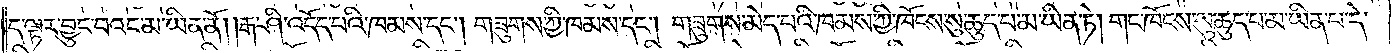ད་ལྟར་བྱུང་བའང་མ་ཡིན་ནོ། །རྒ་ཤི་འདོད་པའི་ཁམས་དང༌། གཟུགས་ཀྱི་ཁམས་དང༌། གཟུགས་མེད་པའི་ཁམས་ཀྱི་ཁོངས་སུ་ཆུད་པ་མ་ཡིན་ཏེ། གང་ཁོངས་སུ་ཆུད་པ་མ་ཡིན་པ་དེ་
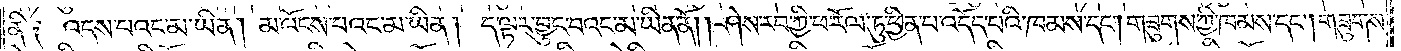ནི༑ འདས་པའང་མ་ཡིན། མ་འོངས་པའང་མ་ཡིན། ད་ལྟར་བྱུང་བའང་མ་ཡིན་ནོ། །ཤེས་རབ་ཀྱི་ཕ་རོལ་ཏུ་ཕྱིན་པ་འདོད་པའི་ཁམས་དང༌། གཟུགས་ཀྱི་ཁམས་དང༌། གཟུགས་
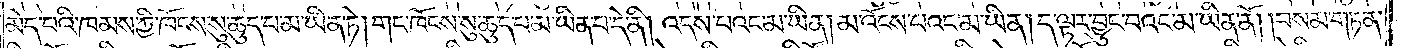མེད་པའི་ཁམས་ཀྱི་ཁོངས་སུ་ཆུད་པ་མ་ཡིན་ཏེ། གང་ཁོངས་སུ་ཆུད་པ་མ་ཡིན་པ་དེ་ནི། འདས་པའང་མ་ཡིན། མ་འོངས་པའང་མ་ཡིན། ད་ལྟར་བྱུང་བའང་མ་ཡིན་ནོ། །བསམ་གཏན་
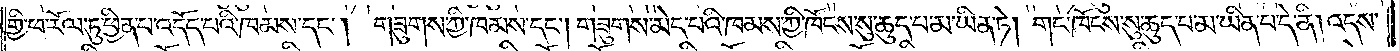གྱི་ཕ་རོལ་ཏུ་ཕྱིན་པ་འདོད་པའི་ཁམས་དང༌། གཟུགས་ཀྱི་ཁམས་དང༌། གཟུགས་མེད་པའི་ཁམས་ཀྱི་ཁོངས་སུ་ཆུད་པ་མ་ཡིན་ཏེ། གང་ཁོངས་སུ་ཆུད་པ་མ་ཡིན་པ་དེ་ནི། འདས་
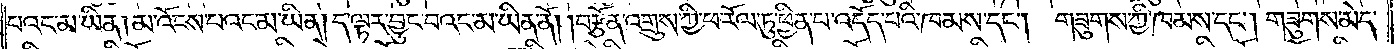པའང་མ་ཡིན། མ་འོངས་པའང་མ་ཡིན། ད་ལྟར་བྱུང་བའང་མ་ཡིན་ནོ། །བརྩོན་འགྲུས་ཀྱི་ཕ་རོལ་ཏུ་ཕྱིན་པ་འདོད་པའི་ཁམས་དང༌། གཟུགས་ཀྱི་ཁམས་དང༌། གཟུགས་མེད་
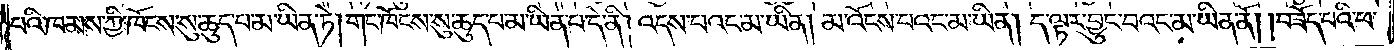པའི་ཁམས་ཀྱི་ཁོངས་སུ་ཆུད་པ་མ་ཡིན་ཏེ། གང་ཁོངས་སུ་ཆུད་པ་མ་ཡིན་པ་དེ་ནི། འདས་པའང་མ་ཡིན། མ་འོངས་པའང་མ་ཡིན། ད་ལྟར་བྱུང་བའང་མ་ཡིན་ནོ། །བཟོད་པའི་ཕ་
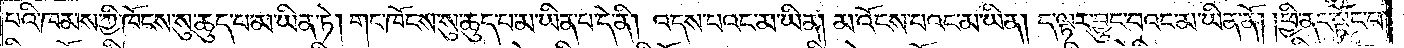པའི་ཁམས་ཀྱི་ཁོངས་སུ་ཆུད་པ་མ་ཡིན་ཏེ། གང་ཁོངས་སུ་ཆུད་པ་མ་ཡིན་པ་དེ་ནི། འདས་པའང་མ་ཡིན། མ་འོངས་པའང་མ་ཡིན། ད་ལྟར་བྱུང་བའང་མ་ཡིན་ནོ། །ཕྱི་ནང་སྟོང་པ་
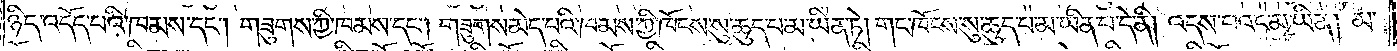ཉིད་འདོད་པའི་ཁམས་དང༌། གཟུགས་ཀྱི་ཁམས་དང༌། གཟུགས་མེད་པའི་ཁམས་ཀྱི་ཁོངས་སུ་ཆུད་པ་མ་ཡིན་ཏེ། གང་ཁོངས་སུ་ཆུད་པ་མ་ཡིན་པ་དེ་ནི། འདས་པའང་མ་ཡིན། མ་
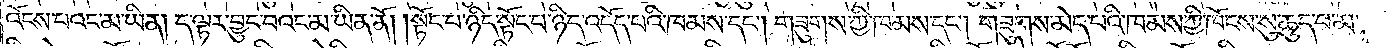འོངས་པའང་མ་ཡིན། ད་ལྟར་བྱུང་བའང་མ་ཡིན་ནོ། །སྟོང་པ་ཉིད་སྟོང་པ་ཉིད་འདོད་པའི་ཁམས་དང༌། གཟུགས་ཀྱི་ཁམས་དང༌། གཟུགས་མེད་པའི་ཁམས་ཀྱི་ཁོངས་སུ་ཆུད་པ་མ་
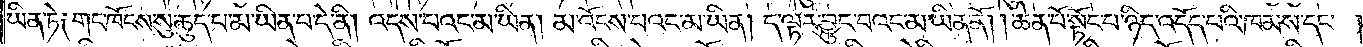ཡིན་ཏེ༑ གང་ཁོངས་སུ་ཆུད་པ་མ་ཡིན་པ་དེ་ནི། འདས་པའང་མ་ཡིན། མ་འོངས་པའང་མ་ཡིན། ད་ལྟར་བྱུང་བའང་མ་ཡིན་ནོ། །ཆེན་པོ་སྟོང་པ་ཉིད་འདོད་པའི་ཁམས་དང༌།
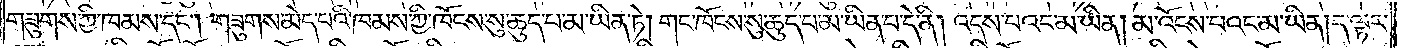གཟུགས་ཀྱི་ཁམས་དང༌། གཟུགས་མེད་པའི་ཁམས་ཀྱི་ཁོངས་སུ་ཆུད་པ་མ་ཡིན་ཏེ། གང་ཁོངས་སུ་ཆུད་པ་མ་ཡིན་པ་དེ་ནི། འདས་པའང་མ་ཡིན། མ་འོངས་པའང་མ་ཡིན། ད་ལྟར་
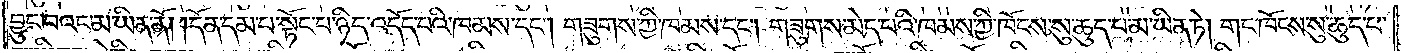བྱུང་བའང་མ་ཡིན་ནོ། །དོན་དམ་པ་སྟོང་པ་ཉིད་འདོད་པའི་ཁམས་དང༌། གཟུགས་ཀྱི་ཁམས་དང༌། གཟུགས་མེད་པའི་ཁམས་ཀྱི་ཁོངས་སུ་ཆུད་པ་མ་ཡིན་ཏེ། གང་ཁོངས་སུ་ཆུད་པ་
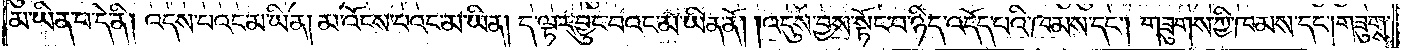མ་ཡིན་པ་དེ་ནི། འདས་པའང་མ་ཡིན། མ་འོངས་པའང་མ་ཡིན། ད་ལྟར་བྱུང་བའང་མ་ཡིན་ནོ། །འདུས་བྱས་སྟོང་པ་ཉིད་འདོད་པའི་ཁམས་དང༌། གཟུགས་ཀྱི་ཁམས་དང༌། གཟུགས་
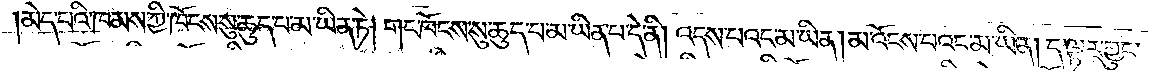མེད་པའི་ཁམས་ཀྱི་ཁོངས་སུ་ཆུད་པ་མ་ཡིན་ཏེ། གང་ཁོངས་སུ་ཆུད་པ་མ་ཡིན་པ་དེ་ནི། འདས་པའང་མ་ཡིན། མ་འོངས་པའང་མ་ཡིན། ད་ལྟར་བྱུང་
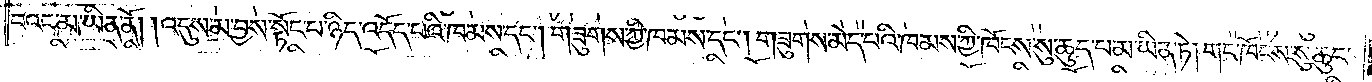བའང་མ་ཡིན་ནོ། །འདུས་མ་བྱས་སྟོང་པ་ཉིད་འདོད་པའི་ཁམས་དང༌། གཟུགས་ཀྱི་ཁམས་དང༌། གཟུགས་མེད་པའི་ཁམས་ཀྱི་ཁོངས་སུ་ཆུད་པ་མ་ཡིན་ཏེ། གང་ཁོངས་སུ་ཆུད་
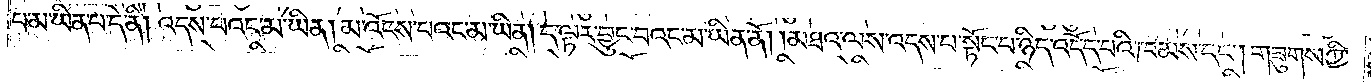པ་མ་ཡིན་པ་དེ་ནི། འདས་པའང་མ་ཡིན། མ་འོངས་པའང་མ་ཡིན། ད་ལྟར་བྱུང་བའང་མ་ཡིན་ནོ། །མཐའ་ལས་འདས་པ་སྟོང་པ་ཉིད་འདོད་པའི་ཁམས་དང༌། གཟུགས་ཀྱི་
